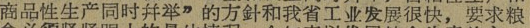商品性生产同时并举”的方針和我省工业发展很快，要求粮
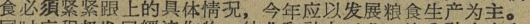食必須紧紧跟上的具体情况，今年用以发展粮食生产为主。
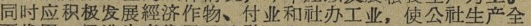同时应积极发展經济作物、付业和社办工业，使公社生产全
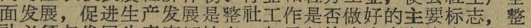面发展，促进生产发展是整社工作是否做好的重要标志，整
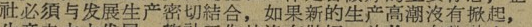設必須与发展生产密切結合，如果新的生产高潮沒有掀起，
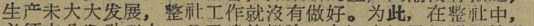生产未大大发展，整社工作就沒有做好。为此，在整社中，
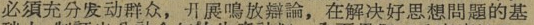必須充分发动群众，开展鳴放辯論，在解决好思想問題的基
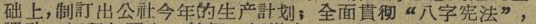础上，制訂出公社今年的生产計划；全面貫彻“八字宪法”，
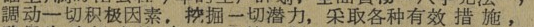調动一切积极因素，挖掘一切潜力，采取各种有效措施，
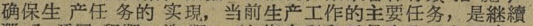确保生 产任 务的实現，当前生产工作的主要任务，是継續
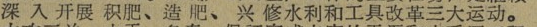深 入 开展 积肥、造 肥、兴 修水利和工具改革三大运动。
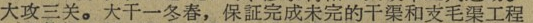大攻三覌。大干一冬春，保証完成未完的干渠和支毛渠工程
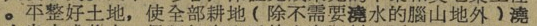。平整好土地，使全部耕地（除不需要澆水的腦山地外）澆
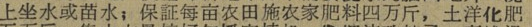上坐水或苗水；保証每亩农田施农家肥料四万斤，土洋化肥
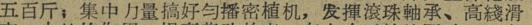五百斤；集中力量搞好匀播密植机，发揮滚珠轴承、高綫滑
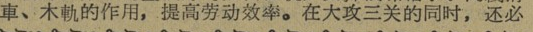車、木軌的作用，提高劳动效率。在大攻三覌的同时，还必
